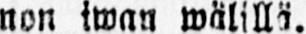non iwan wälillä.
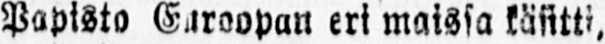Papisto Euroopan eri maissa käsitti,
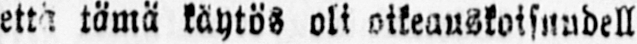että tämä käytös oli oikeauskoisuudell
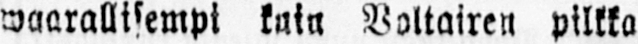waarallisempi kuin Voltairen pilkka
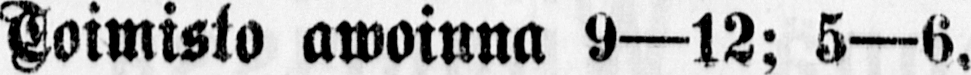Toimisto awoinna 9—12; 5—6,
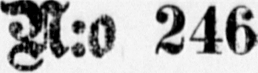N:o 246
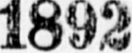1892
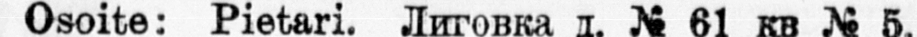Osoits: Piekari. Лиговка д. No 61 кв No 5.
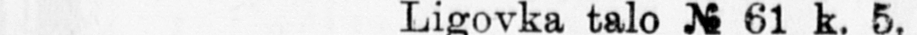Ligovka talo N 61 k. 5.
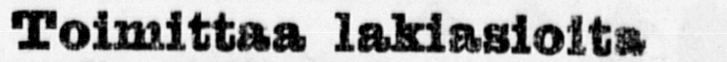Toimittaa lakiasiolta
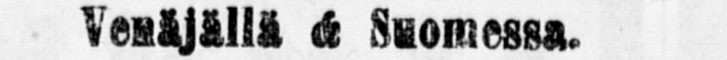Venällä & Suomessa.
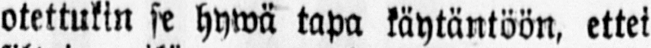otettukin se hywä tapa käytäntöön, ettei
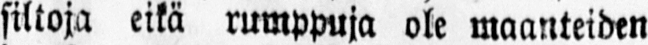siltoja eikä rumppuja ole maanteiden
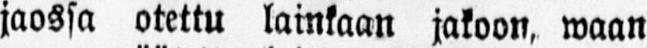jaossa otettu lainkaan jakoon, waan
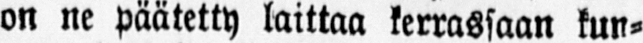on ne päätetty laittaa kerrassaan kun-
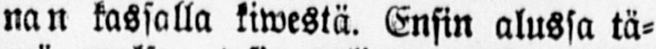nan kassalla kiwestä. Ensin alussa tä-
